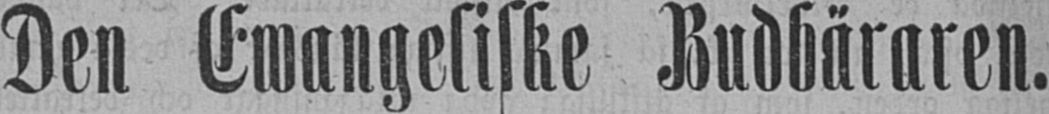Den Ewangeliske Budbäraren.
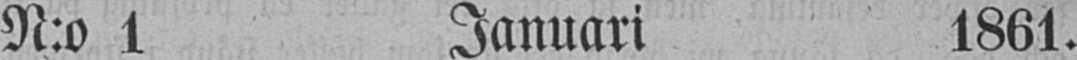N:o 1 Januari 1861.
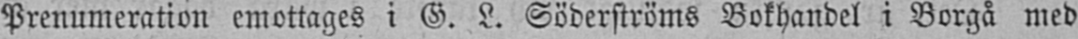Prenumeration emottages i G. L. Söderströms Bokhandel i Borgå med
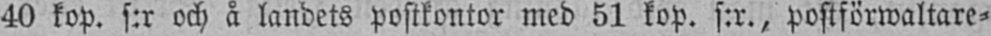40 kop. s:r och å landets postkontor med 51 kop. s:r., postförwaltare-
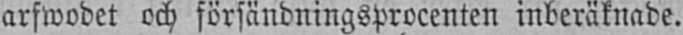arfwodet och försändningsprocenten inberäknade.
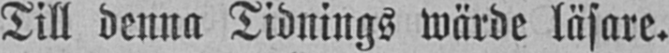Till denna Tidnings wärde läsare.
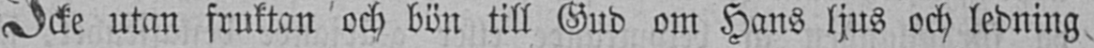Icke utan fruktan och bön till Gud om Hans ljus och ledning
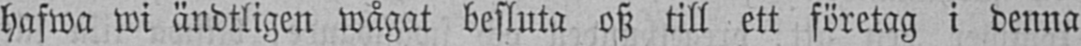hafwa wi ändtligen wågat besluta osz till ett företag i denna
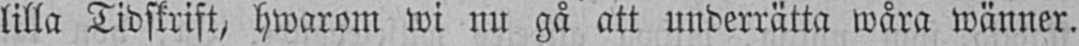lilla Tidskrift, hwarom wi nu gå att underrätta wåra wänner.
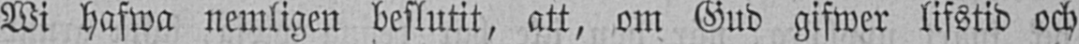Wi hafwa nemligen beslutit, att, om Gud gifwer lifstid och
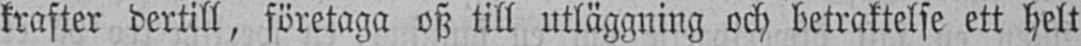krafter dertill, företaga osz till utläggning och betraktelse ett helt
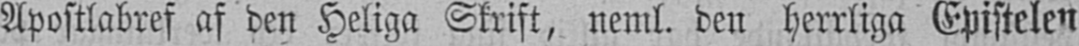Apostlabref af den Heliga Skrift, neml. den herrliga Epistelen
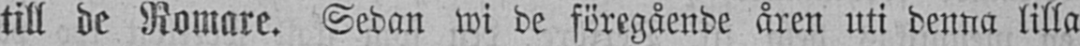till de Romare. Sedan wi de föregående åren uti denna lilla
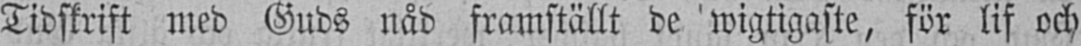Tidskrift med Guds nåd framställt de wigtigaste, för lif och
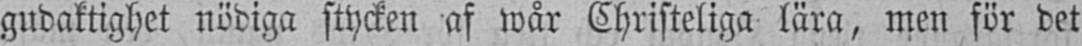gudaktighet nödiga stycken af wår Christeliga lära, men för det
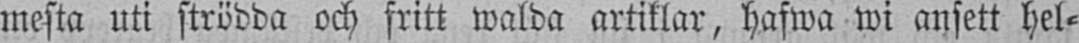mesta uti strödda och fritt walda artiklar, hafwa wi ansett hel-
